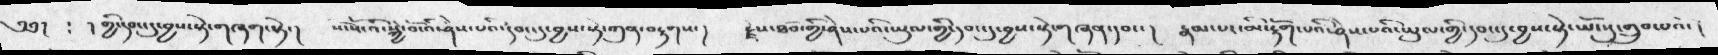༄༅།  ༴  ། གྱི་དབང་དུ་བྱས་སྟེ་གཞག་སྟེ་།   སོ་སོ་འི་སྐྱེ་བོ་འི་ཤེས་པའི་དབང་དུ་བྱས་སྟེ་ཀུན་བརྟགས་།  རྗེས་ཐོབ་གྱི་ཤེས་པའི་ཡུལ་གྱི་དབང་དུ་བྱས་སྟེ་གཞན་དབང་།   རྣམ་པར་མི་རྟོག་པའི་ཤེས་པའི་ཡུལ་གྱི་དབང་དུ་བྱས་སྟེ་ཡོངསུ་གྲུབ་པའོ་།
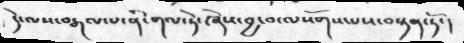དེ་ལས་བརྒལ་པ་ནི་གལ་ཏེ་ཞེས་བྱ་བ་ལསོགས་པས་བསྟན་ཏོ་།
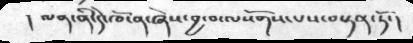། ལན་ནི་དེ་ཁོ་ན་ཞེས་བྱ་བ་ལསོགས་པས་བསྟན་ཏོ་།
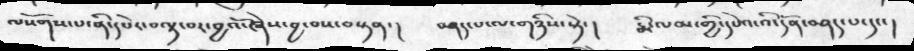ལསོགས་པ་ནི་དཔེར་བལྟ་བར་བྱའོ་ཞེས་བྱ་བས་བསྟན་།  བཤད་པ་ལ་གཉིས་སྟེ་།  རྨི་ལམ་གྱི་དཔེའ་འི་དོན་བཤད་པ་དང་།
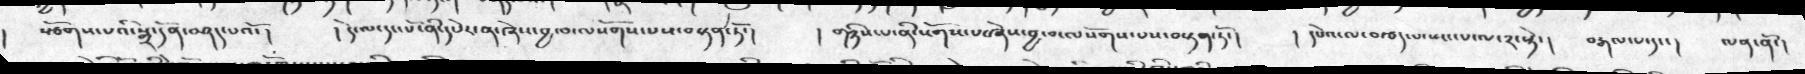སྩོགས་པའི་སྒྲ་དོན་བཤད་པའོ་།  ། དེ་ལ་དང་པོ་ནི་དཔེར་ན་ཞེས་བྱ་བ་ལསོགས་པས་བསྟན་ཏོ་།  ། གཉིས་པ་ནི་སོགས་པ་ཞེས་བྱ་བ་ལསོགས་པས་བསྟན་ཏོ་།   ། དཔེའ་ལ་བརྩད་པ་སང་་པ་ལ་༢་སྟེ་།  བརྒལ་པ་དང་།  ལན་ནོ་།
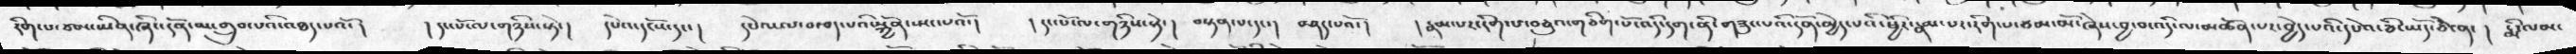རིག་པ་ཙམ་ཡིན་ཞིང་དོན་མ་གྲུབ་པའི་འཐད་པའོ་།   ། དང་པོ་ལ་གཉིས་སྟེ་།  དཔེའ་དངོས་དང་།  དཔེའ་ལ་བརྩད་པའི་སྐྱོན་སྤང་པའོ་།  ། དང་པོ་ལ་གཉིས་སྟེ་།  བསྟན་པ་དང་།   བཤད་པའོ་།  ། རྣམ་པར་རིག་པ་བཅུའ་གཅིག་པོ་འདི་དག་ནི་གཟུང་པའི་དོན་མྱེད་པའི་ཕྱིར་རྣམ་པར་རིག་པ་ཙམ་མོ་ཞེས་བྱ་བ་འདི་ལ་མཚོན་པར་བྱེད་པའི་དཔེའ་ཅི་ཡོད་ཅེ་ན་ ། རྨི་ལམ་
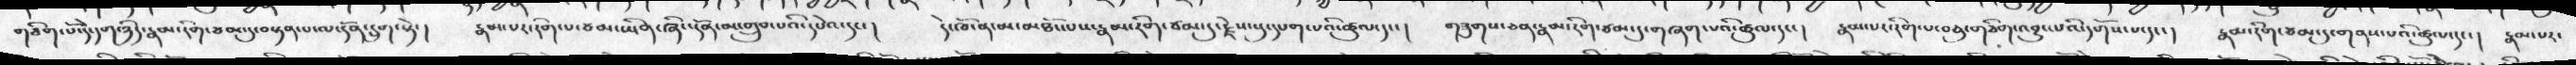གཅིག་པོ་དེ་དག་ཉིད་རྣམ་རིག་ཙམ་དུ་བསྟན་པ་ལ་དོན་དྲུག་སྟེ་།   རྣམ་པར་རིག་པ་ཙམ་ཡིན་ཞིང་དོན་མ་གྲུབ་པའི་དཔེའ་དང་།  དེ་ཁོ་ན་མ་མཐོང་པས་རྣམ་རིག་ཙམ་དུ་རྗེས་སུ་དཔག་པའི་ཚུལ་དང་།  གཟུགས་ཅན་རྣམ་རིག་ཙམ་དུ་གཞག་པའི་ཚུལ་དང་།  རྣམ་པར་རིག་པ་བཅུ་གཅིག་འབྱུང་པའི་དགོས་པ་དང་།  རྣམ་རིག་ཙམ་དུ་གནས་པའི་ཚུལ་དང་།  རྣམ་པར་
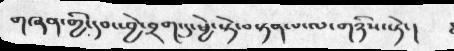གཞན་གྱི་དབང་་བྱེ་བྲག་དུ་ཕྱེ་སྟེ་བསྟན་པ་ལ་གཉིས་སྟེ་།
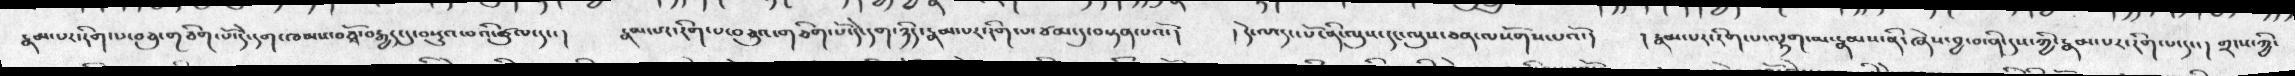རྣམ་པར་རིག་པ་བཅུ་གཅིག་པོ་དེ་དག་ཁམས་བཅྭོ་བརྒྱད་དུ་བསྡུའ་བའི་ཚུལ་དང་།  རྣམ་པར་རིག་པ་བཅུའ་གཅིག་པོ་དེ་དག་ཉིད་རྣམ་པར་རིག་པ་ཙམ་དུ་བསྟན་པའོ་།  ། དེ་ལ་དང་པོ་ནི་ལུས་དང་ལུས་ཅན་ལསོགས་པའོ་།  ། རྣམ་པར་རིག་པ་ལྷག་པ་རྣམས་ནི་ཞེས་བྱ་བ་ནི་དུས་ཀྱི་རྣམ་པར་རིག་པ་དང་།  གྲངས་ཀྱི་
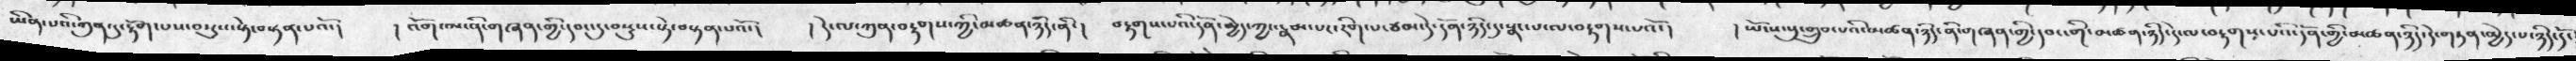ཡིན་པའི་ཀུན་དུ་རྟོག་པས་བསུས་སྟེ་བསྟན་པའོ་།   ། འོག་མ་ནི་གཞན་གྱི་དབང་དུ་བསྡུས་སྟེ་བསྟན་པའོ་།   ། དེ་ལ་ཀུན་བརྟགས་ཀྱི་མཚན་ཉིད་ནི་།  བརྟགས་པའི་དོན་མྱེད་ཀྱང་རྣམ་པར་རིག་པ་ཙམ་དེ་དོན་ཉིད་དུ་སྣང་པ་ལ་བརྟགས་པའོ་།   ། ཡོངས་སུ་གྲུབ་པའི་མཚན་ཉིད་ནི་གཞན་གྱི་དབང་གི་མཚན་ཉིད་དེ་ལ་བརྟགས་པའི་དོན་གྱི་མཚན་ཉིད་དེ་གཏན་མྱེད་པ་ཉིད་དོ་
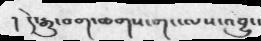། དེ་རྒྱུ་བག་ཆགས་གང་ལས་འབྱུང་
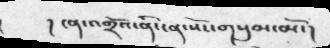། ངན་འགྲོའ་ནི་ངན་སོང་གསུམ་མོ་།
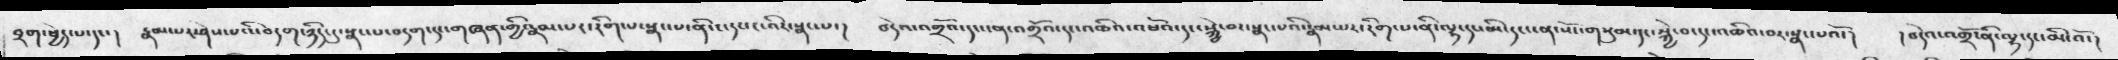བྲག་ཕྱེད་པ་དང་།  རྣམ་པར་ཤེས་པའི་བདག་ཉིད་དུ་སྣང་པ་བདག་དང་གཞན་གྱི་རྣམ་པར་རིག་པ་སྣང་པ་ནི་ང་དང་ང་འིར་སྣང་པ་།  བདེའ་འགྲོའ་དང་ངན་འགྲོའ་དང་འཆིའ་འཕོའ་དང་སྐྱེ་བར་སྣང་པའི་རྣམ་པར་རིག་པ་ནི་ལྷ་དང་མི་དང་ངན་སོང་གསུམ་དང་སྐྱེ་བ་དང་འཆིའ་བར་སྣང་པའོ་།  ། བདེའ་འགྲོ་ནི་ལྷ་དང་མི་འོ་།
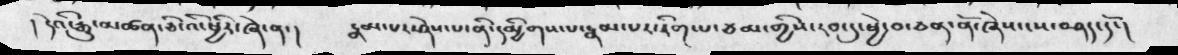། དེའི་རྒྱུ་མཚན་ཅི་འི་ཕྱིར་ཞེ་ན་།  རྣམ་པར་ཤེས་པ་ནི་དམྱིགས་པ་རྣམ་པར་རིག་པ་ཙམ་གྱིས་རབ་དུ་ཕྱེ་བ་ཅན་ནོ་ཞེས་ངས་བཤད་དོ་།
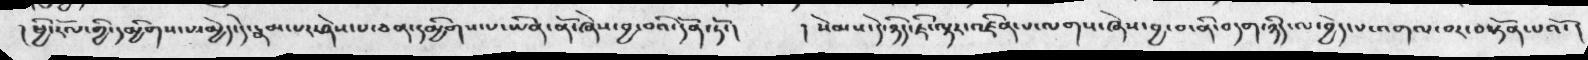། ཕྱི་རོལ་གྱི་དམྱིགས་པ་མྱེད་དེ་རྣམ་པར་ཤེས་པ་ཅན་དམྱིགས་པ་ཡིན་ནོ་ཞེས་བྱ་བའི་དོན་ཏོ་།   ། སེམས་དེ་ཉིད་ཇི་ལྟར་འཛིན་པ་ལགས་ཞེས་བྱ་བ་ནི་བདག་ཉིད་ལ་བྱེད་པ་འགལ་བར་བསྟོན་པའོ་།
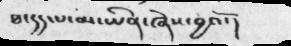ཐ་དད་པ་མ་ཡིན་ཞེས་བྱའོ་།
